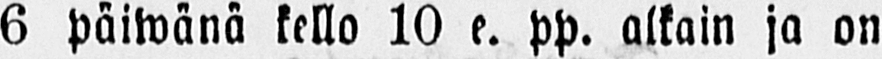6 päiwänä kello 10 e. pp. olkain ja on
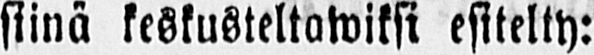siinä keskusteltowiksi esitelty:
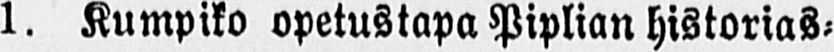1. Kumpiko opetustapa Piplian historias-
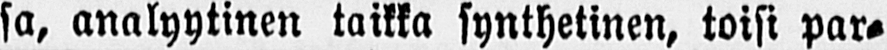sa, analyytinen taikka synthetinen, toisi par-
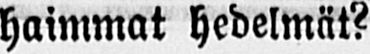haimmat hedelmät?
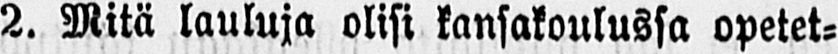2. Mitä lauluja olisi kansakoulussa opetet-
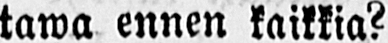tawa ennen kaikkia?
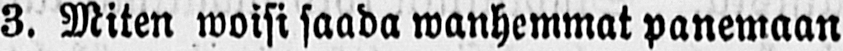3. Miten woisi saada wanhemmat panemaan
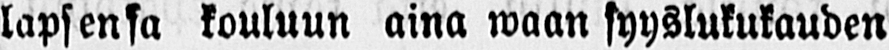lapsensa kouluun aina waan syyslukukauden
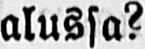alussa?
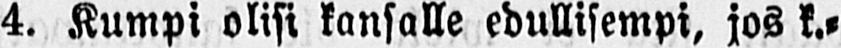4. Kumpi olisi kansalle edullisempi, jos k.-
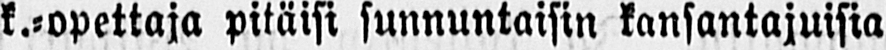k.-opettaja pitäisi sunnuntaisin kansantajuisia
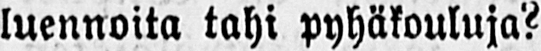luennoita tahi pyhäkouluja?
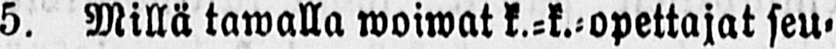5. Millä tawalla woiwat k.-k.-opettajat seu-
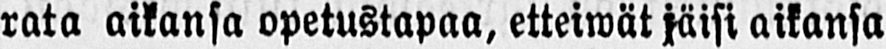rata aikansa opetustapaa, etteiwät jäisi aikansa
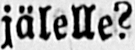jälelle?
